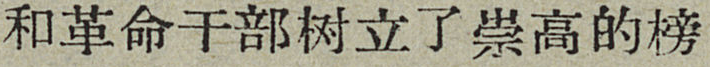和革命干部树立了崇高的榜
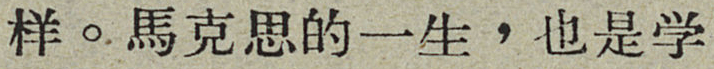样。馬克思的一生，也是学
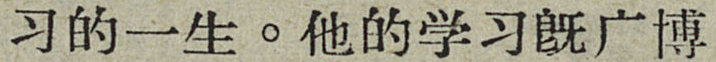习的一生。他的学习旣广博
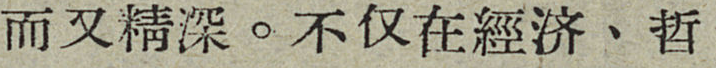而又精深。不仅在經济、哲
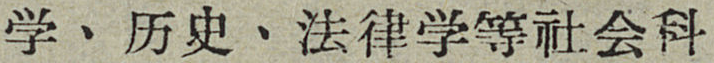学、历史、法律学等社会科
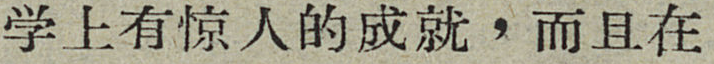学上有惊人的成就，而且在
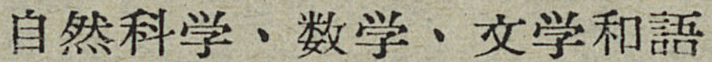自然科学、数学、文学和語
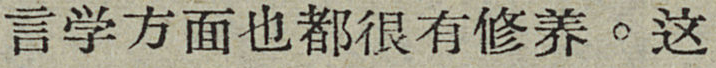言学方面也都很有修养。这
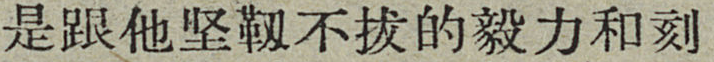是跟他坚靱不拔的毅力和刻
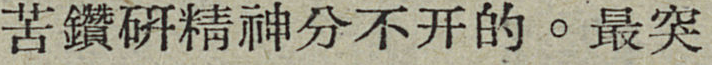苦鑽研精神分不开的。最突
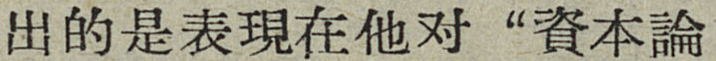出的是表現在他对“資本論
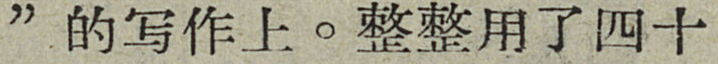”的写作上。整整用了四十
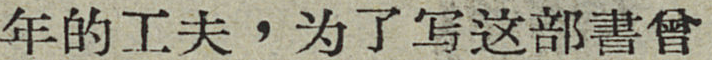年的工夫，为了写这部書曾
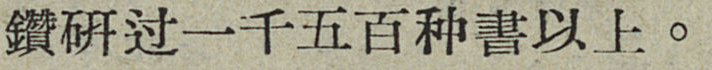鑽研过一千五百种書以上。
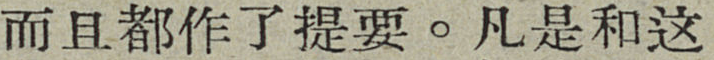而且都作了提要。凡是和这
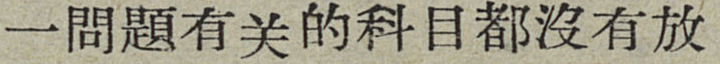一問題有关的科目都沒有放
